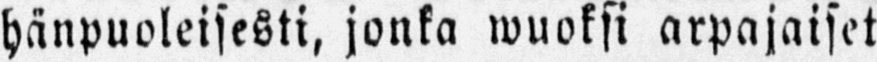hänpuoleisesti, jonka wuoksi arpajaiset
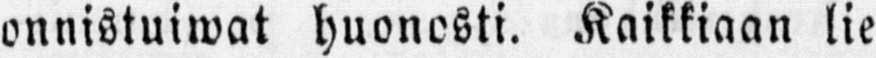onnistuiwat huonosti. Kaikkiaan lie
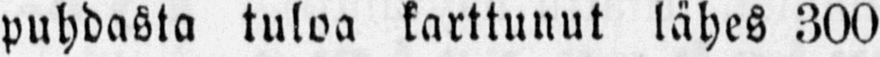puhdasta tuloa karttunut lähes 300
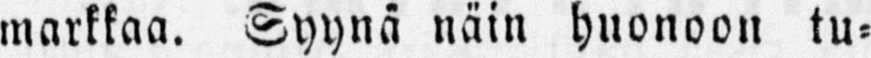markkaa. Syynä näin huonoon tu-
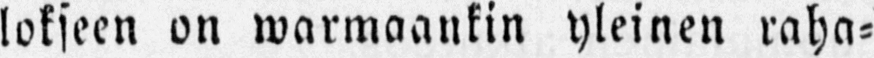lokseen on warmaankin yleinen raha-
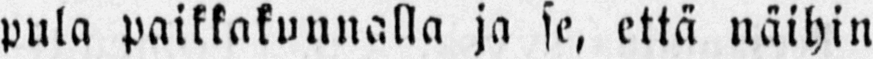pula paikkakunnalla ja se, että näihin
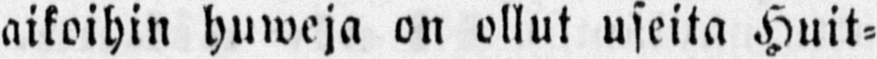aikoihin huweja on ollut useita Huit-
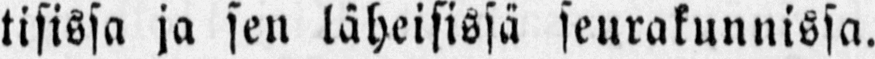tisissa ja sen läheisissä seurakunnissa.
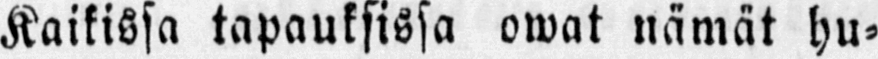Kaikissa tapauksissa owat nämät hu-
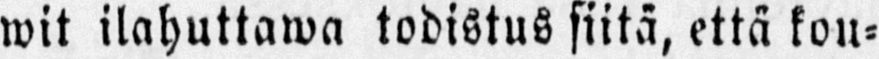wit ilahuttawa todistus siitä, että kou-
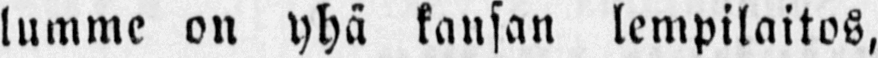lumme on yhä kansan lempilaitos,
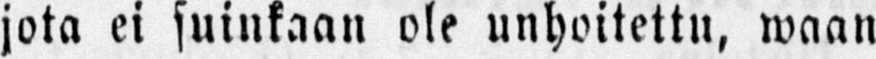jota ei suinkaan ole unhoitettu, waan
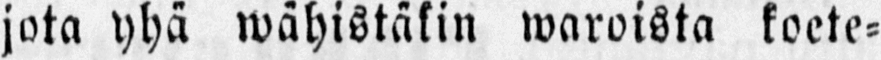jota yhä wähistäkin waroista koete-
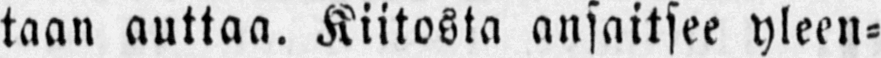taan auttaa. Kiitosta ansaitsee yleen-
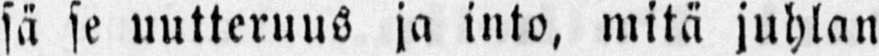sä se uutteruus ja into, mitä juhlan
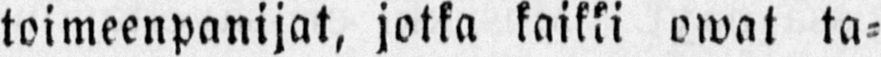toimeenpanijat, jotka kaikki owat ta-
